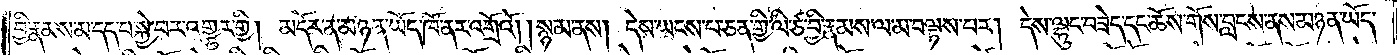བྱི་རྣམས་མ་དད་པ་སྐྱེ་བར་འགྱུར་གྱི། མདོར་ན་མཉན་ཡོད་ཁོ་ནར་འགྲོའོ། །སྙམ་ནས། དེས་ཡངས་པ་ཅན་གྱི་ལི་ཙ་བྱི་རྣམས་ལ་མ་བལྟས་པར། དེས་ལྷུང་བཟེད་དང་ཆོས་གོས་བླངས་ནས་མཉན་ཡོད་
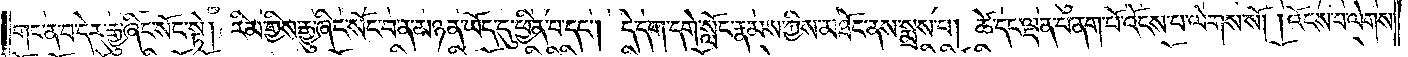གང་ན་བ་དེར་རྒྱུ་ཞིང་སོང་སྟེ། རིམ་གྱིས་རྒྱུ་ཞིང་སོང་བ་ན་མཉན་ཡོད་དུ་ཕྱིན་པ་དང༌། དེ་དག་དགེ་སློང་རྣམས་ཀྱིས་མཐོང་ནས་སྨྲས་པ། ཚེ་དང་ལྡན་པ་ནག་པོ་འོངས་པ་ལེགས་སོ། །འོངས་པ་ལེགས་
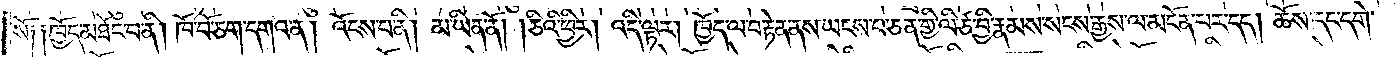སོ། །ཁྱོད་མཐོང་བ་ནི། ཁོ་བོ་ཅག་དགའ་ན། འོངས་པ་ནི། མ་ཡིན་ནོ། །ཅིའི་ཕྱིར། འདི་ལྟར། ཁྱོད་ལ་བརྟེན་ནས་ཡངས་པ་ཅན་གྱི་ལི་ཙ་བྱི་རྣམས་སངས་རྒྱས་ལ་མངོན་པར་དད། ཆོས་དང་དགེ་
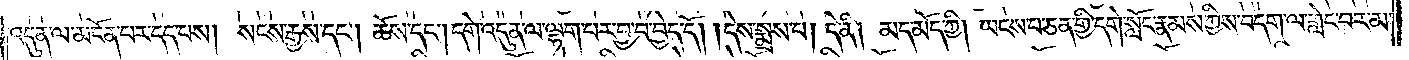འདུན་ལ་མངོན་པར་དད་པས། སངས་རྒྱས་དང༌། ཆོས་དང༌། དགེ་འདུན་ལ་ལྷག་པར་བྱ་བ་བྱེད་དོ། །དེས་སྨྲས་པ། དེ་ནི། མད་མོད་ཀྱི། ཡངས་པ་ཅན་གྱི་དགེ་སློང་རྣམས་ཀྱིས་བདག་ལ་གླེང་བར་མ་
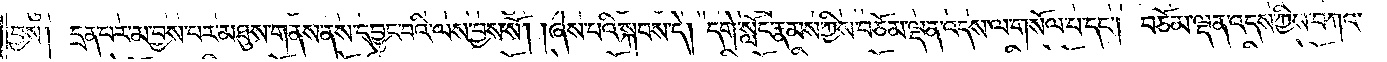བྱས། དྲན་པར་མ་བྱས་པར་མཐུས་གནས་ནས་དབྱུང་བའི་ལས་བྱས་སོ། །ཞེས་པའི་སྐབས་དེ། དགེ་སློང་རྣམས་ཀྱིས་བཅོམ་ལྡན་འདས་ལ་གསོལ་པ་དང༌། བཅོམ་ལྡན་འདས་ཀྱིས་བཀའ་
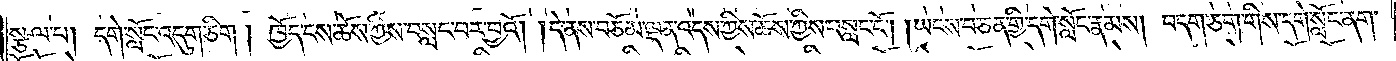སྩལ་པ། དགེ་སློང་འདུག་ཅིག །ཁྱོད་ངས་ཆོས་ཀྱིས་བསླང་བར་བྱའོ། །དེ་ནས་བཅོམ་ལྡན་འདས་ཀྱིས་ཆོས་ཀྱིས་བསླང་ངོ༌། །ཡངས་པ་ཅན་གྱི་དགེ་སློང་རྣམས། བདག་ཅག་གིས་དགེ་སློང་ནག་
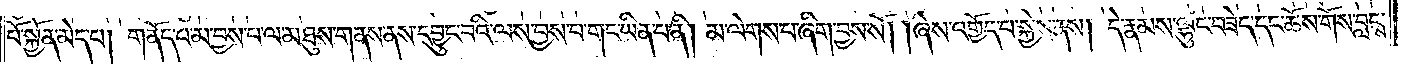པོ་སྐྱོན་མེད་པ། གནོད་པ་མ་བྱས་པ་ལ་མཐུས་གནས་ནས་དབྱུང་བའི་ལས་བྱས་པ་གང་ཡིན་པ་ནི། མ་ལེགས་པ་ཞིག་བྱས་སོ། །ཞེས་འགྱོད་པ་སྐྱེས་ནས། དེ་རྣམས་ལྷུང་བཟེད་དང་ཆོས་གོས་བླངས་
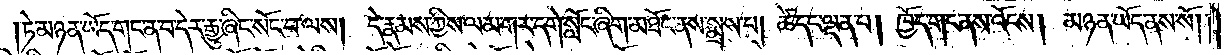།ཏེ་མཉན་ཡོད་གང་ན་བ་དེར་རྒྱུ་ཞིང་སོང་བ་ལས། དེ་རྣམས་ཀྱིས་ལམ་གར་དགེ་སློང་ཞིག་མཐོང་ནས་སྨྲས་པ། ཚེ་དང་ལྡན་པ། ཁྱོད་གང་ནས་འོངས། མཉན་ཡོད་ནས་སོ། །
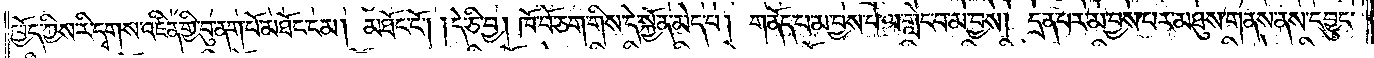ཁྱོད་ཀྱིས་རི་དྭགས་འཛིན་གྱི་བུ་ནག་པོ་མཐོང་ངམ། མཐོང་ངོ༌། །དེ་ཅི་བྱ། ཁོ་བོ་ཅག་གིས་དེ་སྐྱོན་མེད་པ། གནོད་པ་མ་བྱས་པ་ལ་གླེང་བ་མ་བྱས། དྲན་པར་མ་བྱས་པར་མཐུས་གནས་ནས་དབྱུང་
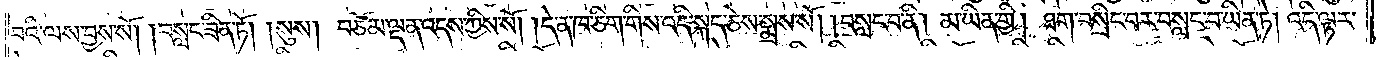བའི་ལས་བྱས་སོ། །བསླང་ཟིན་ཏོ། །སུས། བཅོམ་ལྡན་འདས་ཀྱིས་སོ། །དེ་ན་ཁ་ཅིག་གིས་འདི་སྐད་ཅེས་སྨྲས་སོ། །བསླང་བ་ནི། མ་ཡིན་གྱི། ཐག་བསྲིང་བར་བསླང་བ་ཡིན་ཏེ། འདི་ལྟར་
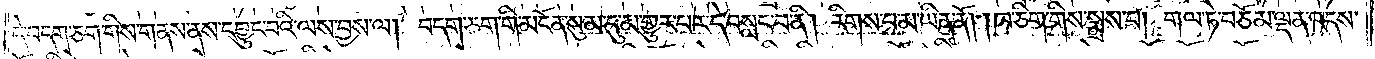དེ་བདག་ཅག་གིས་གནས་ནས་དབྱུང་བའི་ལས་བྱས་ལ། བདག་ཅག་གི་མངོན་སུམ་དུ་མ་གྱུར་པར་དེ་བསླང་བ་ནི། རིགས་པ་མ་ཡིན་ནོ། །ཁ་ཅིག་གིས་སྨྲས་པ། གལ་ཏེ་བཅོམ་ལྡན་འདས་
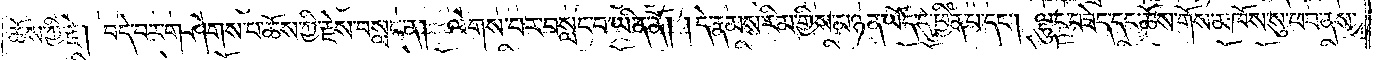ཆོས་ཀྱི་རྗེ། བདེ་བར་གཤེགས་པ་ཆོས་ཀྱི་རྗེས་བསླང་ན། ལེགས་པར་བསླང་བ་ཡིན་ནོ། །དེ་རྣམས་རིམ་གྱིས་མཉན་ཡོད་དུ་ཕྱིན་པ་དང༌། ལྷུང་བཟེད་དང་ཆོས་གོས་མཁོས་སུ་ཕབ་ནས་
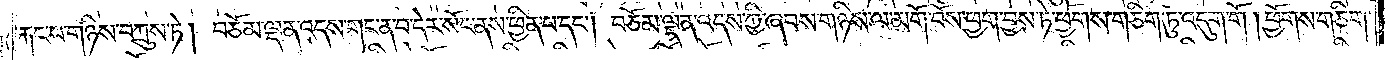རྐང་པ་གཉིས་བཀྲུས་ཏེ། བཅོམ་ལྡན་འདས་གང་ན་བ་དེར་སོང་ནས་ཕྱིན་པ་དང༌། བཅོམ་ལྡན་འདས་ཀྱི་ཞབས་གཉིས་ལ་མགོ་བོས་ཕྱག་བྱས་ཏེ་ཕྱོགས་གཅིག་ཏུ་འདུག་གོ། །ཕྱོགས་གཅིག་
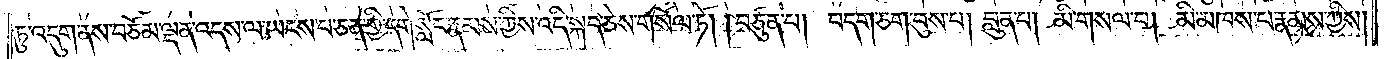ཏུ་འདུག་ནས་བཅོམ་ལྡན་འདས་ལ་ཡངས་པ་ཅན་གྱི་དགེ་སློང་རྣམས་ཀྱིས་འདི་སྐད་ཅེས་གསོལ་ཏོ། །བཙུན་པ། བདག་ཅག་བུས་པ། བླུན་པ། མི་གསལ་བ། མི་མཁས་པ་རྣམས་ཀྱིས།
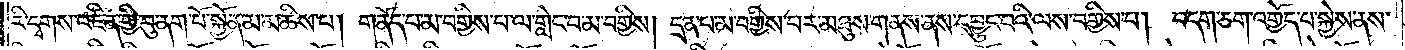རི་དྭགས་འཛིན་གྱི་བུ་ནག་པོ་སྐྱོན་མ་མཆིས་པ། གནོད་པ་མ་བགྱིས་པ་ལ་གླེང་བ་མ་བགྱིས། དྲན་པ་མ་བགྱིས་པར་མཐུས་གནས་ནས་དབྱུང་བའི་ལས་བགྱིས་པ། བདག་ཅག་འགྱོད་པ་སྐྱེས་ནས་
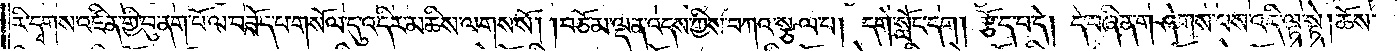རི་དྭགས་འཛིན་གྱི་བུ་ནག་པོ་ལ་བཟོད་པ་གསོལ་དུ་འདིར་མཆིས་ལགས་སོ། །བཅོམ་ལྡན་འདས་ཀྱིས་བཀའ་སྩལ་པ། དགེ་སློང་དག། རྩོད་པ་དེ། དེ་བཞིན་གཤེགས་པས་འདི་ལྟ་སྟེ། ཆོས་
